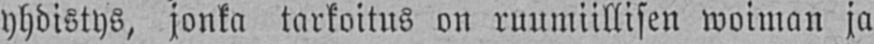yhdistys, jonka tarkoitus on ruumiillisen woiman ja
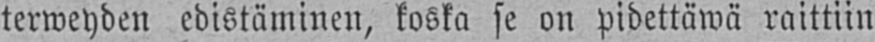terweyden edistäminen, koska se on pidettäwä raittiin
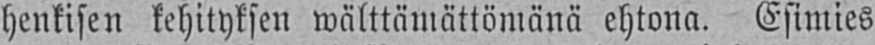henkisen kehityksen wälttämättömänä ehtona. Esimies
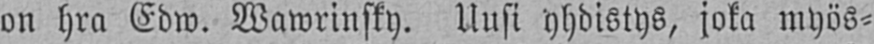on hra Edw. Wawrinsky. Uusi yhdistys, joka myös-
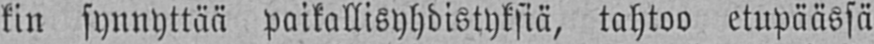kin synnyttää paikallisyhdistyksiä, tahtoo etupäässä
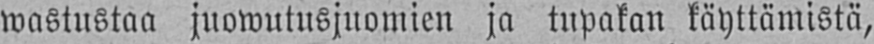wastustaa juowutusjuomien ja tupakan käyttämistä,
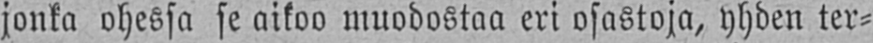jonka ohessa se aikoo muodostaa eri osastoja, yhden ter-
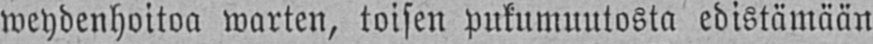weydenhoitoa warten, toisen pukumuutosta edistämään
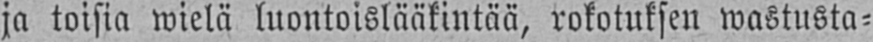ja toisia wielä luontoislääkintää, rokotuksen wastusta-
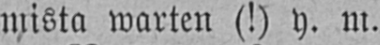mista warten (!) y. m.
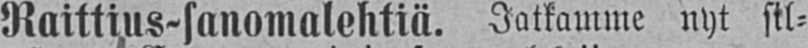Raittius-sanomalehtiä. Jatkamme nyt sil-
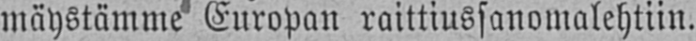mäystämme Europan raittiussanomalehtiin.
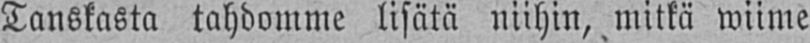Tanskasta tahdomme lisätä niihin, mitkä wiime
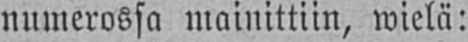numerossa mainittiin, wielä:
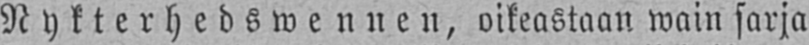Nykterhedswenne n, oikeastaan wain sarja
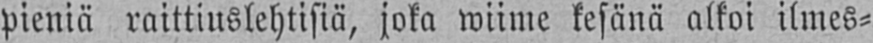pieniä raittiuslehtisiä, joka wiime kesänä alkoi ilmes-
